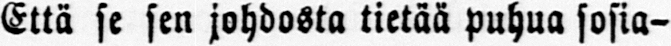Että se sen johdosta tietää puhua sosia-
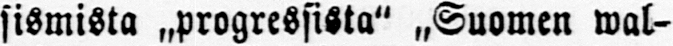lismista ˶progressista" ˶Suomen wal-
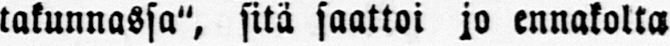takunnassa", sitä saattoi jo ennakolta
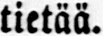tietää.
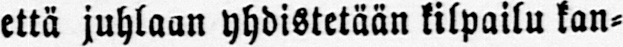että juhlaan yhdistetään kilpailu kan-
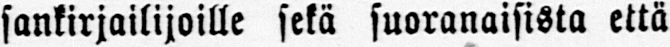sankirjailijoille sekä suoranaisista että
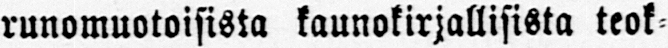runomuotoisista kaunokirjallisista teok-
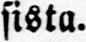sista.
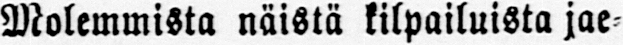Molemmista näistä kilpailuista jae-
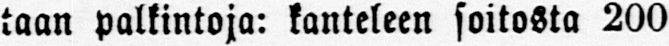taan palkintoja: kanteleen soitosta 200
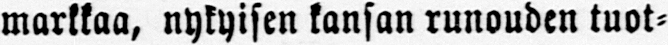markkaa, nykyisen kansan runouden tuot-
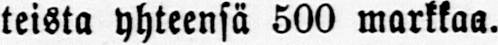teista yhteensä 500 markkaa.
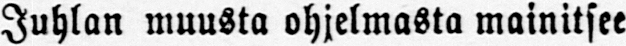Juhlan muusta ohjelmasta mainitsee
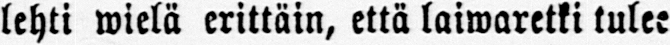lehti wielä erittäin, että laiwaretki tulee
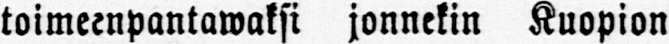toimeenpantawaksi jonnekin Kuopion
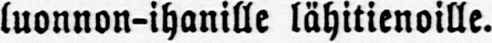luonnon-ihanille lähitienoille.
